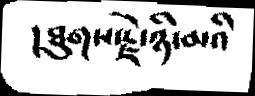།ཐུགས་རྗེ་ཉི་མའི
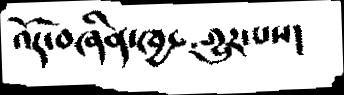འོད་བཞིན་ཁྱབ་གྱུར་པས་།
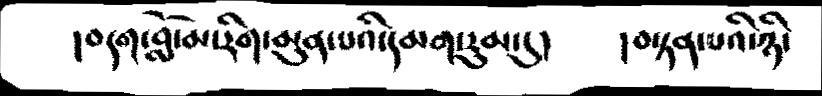།བདག་བློ་མ་རིག་མུན་པའི་དམག་རུམ་དུ།      །བསྟན་པའི་ཉི་
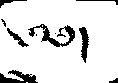༄༅།
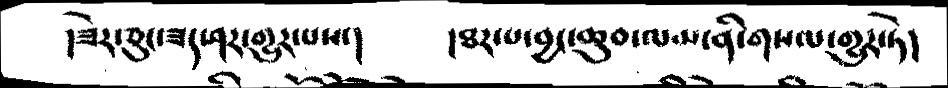།ཟེར་ཅུང་ཟད་ཤར་གྱུར་པས་།     །ཐར་པ་བྱང་ཆུབ་ལམ་ནི་གསལ་གྱུར་ཏེ།
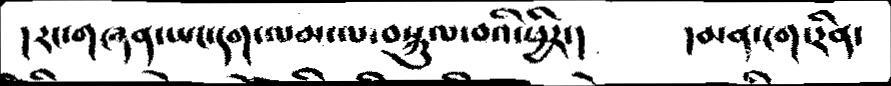།རང་གཞན་ཡང་དག་ལམ་ལ་བསྐུལ་བའི་ཕྱིར་།      །མན་ངག་རིན་
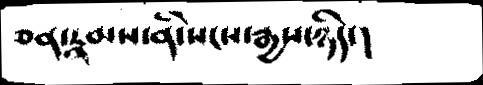ཅན་རྣམས་ནི་སངས་རྒྱས་ཉིད་།
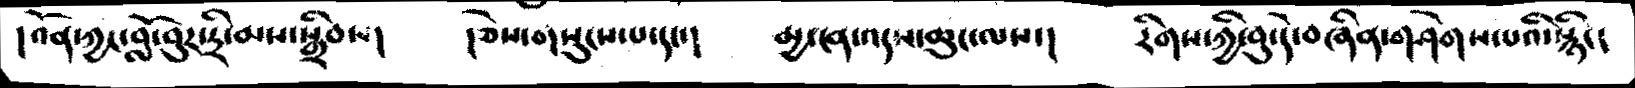།འོན་ཀྱང་བློ་བུར་དྲི་མས་སྒྲིབས།  །ཅེས་གསུངས་པ་དང་།  མྱ་ངན་འདས་ཆུང་ལས་།   རིགས་ཀྱི་བུ་དེ་བཞིན་གཤེགས་པའི་སྙིང།
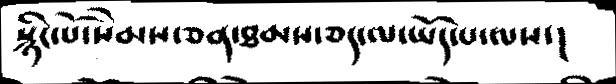སྙིང་པོ་སེམས་ཅན་ཐམས་ཅད་ལ་ཡོད་པ་ལས་།
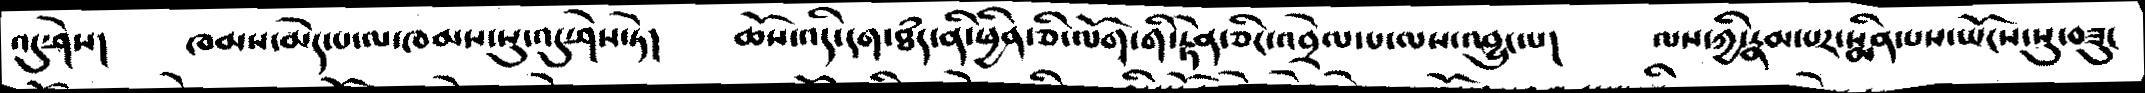འདུ་ཤེས།  ཁམས་མེད་པ་ལ་ཁམས་སུ་འདུ་ཤེས་ཏེ།  ཆོས་འདི་དག་ཐཾད་ནི་ཕྱིན་ཅི་ལོག་གི་རྟེན་ཅིང་འབྲེལ་པ་ལས་འབྱུང་པ།  ལས་ཀྱི་རྣམ་པར་སྨིན་པས་ཡོངས་སུ་བཟུང
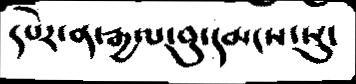དཔེར་ན་རྒྱལ་བུ་དམངས་སུ་
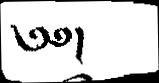༄༅།
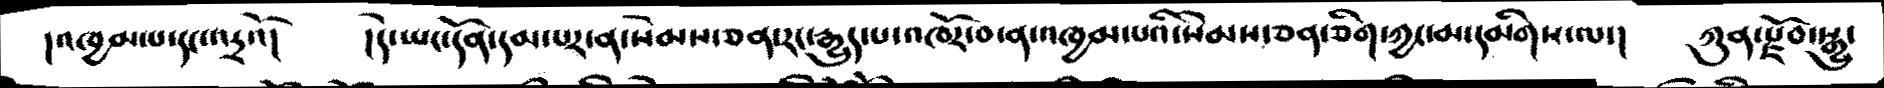།འཁྱམ་པ་དང་འདྲའོ།   །དེ་ཡང་དོན་དམ་པར་ན་ེམས་ཅན་རང་རྒྱུད་པ་འཁོར་བ་ན་འཁྱམ་པའི་སེམས་ཅན་ཅིག་ཀྱང་མ་དམིགས་ལ་།  ཀུན་རྫོབ་སྒྱུ་
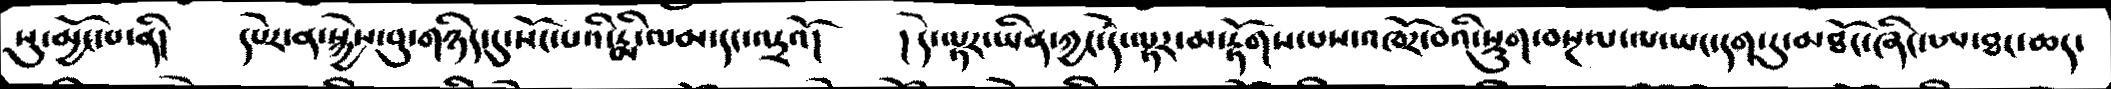སུ་མྱོང་པ་ནི།   དཔེར་ན་སྐྱེས་བུ་གཉིད་དུ་སོང་པའི་རྨི་ལམ་དང་འདྲའོ།   །དེ་ལྟར་ཡིན་ཀྱང་དེ་ལྟར་མ་རྟོགས་པས་འཁོར་བའི་སྡུག་བསྔལ་ལ་ཡང་དག་དུ་མཐོང་ཞིང་ཨ་ཐང་ཆད་
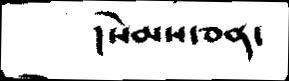། སེམས་ཅན་
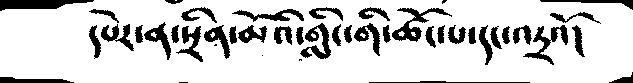དཔེར་ན་སྲིན་མོའི་གླིང་གི་ཚོང་པ་དང་འདྲའོ།
